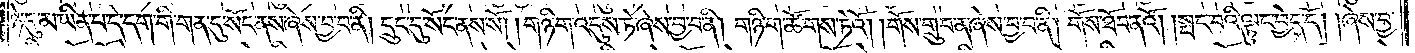ཉེ་དུ་མ་ཡིན་པ་དེ་དག་གི་གན་དུ་སོང་ནས་ཞེས་བྱ་བ་ནི། དྲུང་དུ་སོང་ནས་སོ། །གཉི་ག་འདུས་ཏེ་ཞེས་བྱ་བ་ནི། གཉི་ག་ཚོགས་ཏེའོ། །གོས་གྲུབ་ན་ཞེས་བྱ་བ་ནི། གོས་ཐོབ་ནའོ། །སྤང་བའི་ལྟུང་བྱེད་དོ། །ཞེས་བྱ་
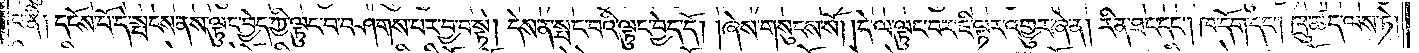པ་ནི༏ དངོས་པོ་དེ་སྤངས་ནས་ལྟུང་བྱེད་ཀྱི་ལྟུང་བ་བཤགས་པར་བྱ་བ་སྟེ། དེས་ན་སྤང་བའི་ལྟུང་བྱེད་དོ། །ཞེས་གསུངས་སོ། །དེ་ལ་ལྟུང་བར་ཇི་ལྟར་འགྱུར་ཞེ་ན། རིན་ཐང་དང༌། ཁ་དོག་དང༌། ཁྲུ་ཚད་ལས་ཏེ།
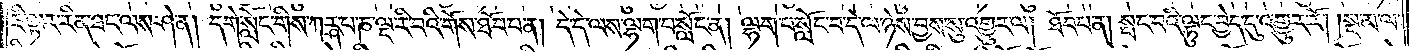ཇི་ལྟར་རིན་ཐང་ལས་ཤེ་ན། དགེ་སློང་གིས་ཀཪྴ་པ་ཎ་ལྔ་རི་བའི་གོས་ཐོབ་པ་ན། དེ་དེ་ལས་ལྷག་པ་སློང་ན། ལྷག་པ་སློང་བ་དེ་ལ་ཉེས་བྱས་སུ་འགྱུར་ལ། ཐོབ་པ་ན། སྤང་བའི་ལྟུང་བྱེད་དུ་འགྱུར་རོ། །སྔ་མ་ལ་
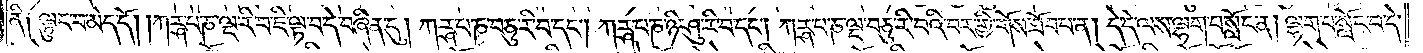ནི༑ ལྟུང་བ་མེད་དོ། །ཀཪྴ་པ་ཎ་ལྔ་རི་བ་ཇི་ལྟ་བ་དེ་བཞིན་དུ། ཀཪྴ་པ་ཎ་བཅུ་རི་བ་དང༌། ཀཪྴ་པ་ཎ་ཉི་ཤུ་རི་བ་དང༌། ཀཪྴ་པ་ཎ་ལྔ་བཅུ་རི་བའི་བར་གྱི་གོས་ཐོབ་པ་ན། དེ་དེ་ལས་ལྷག་པ་སློང་ན། ལྷག་པ་སློང་བ་དེ་
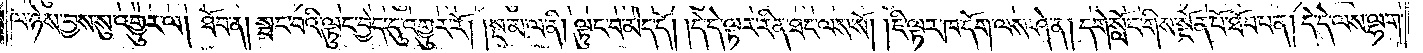ལ་ཉེས་བྱས་སུ་འགྱུར་ལ། ཐོབ་ན། སྤང་བའི་ལྟུང་བྱེད་དུ་འགྱུར་རོ། །སྔ་མ་ལ་ནི། ལྟུང་བ་མེད་དོ། །དེ་དེ་ལྟར་རིན་ཐང་ལས་སོ། །ཇི་ལྟར་ཁ་དོག་ལས་ཤེ་ན། དགེ་སློང་གིས་སྔོན་པོ་ཐོབ་པ་ན། དེ་དེ་ལས་ལྷག་
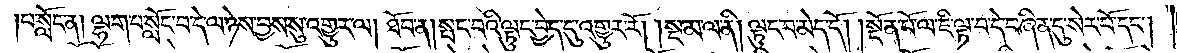པ་སློང་ན། ལྷག་པ་སློང་བ་དེ་ལ་ཉེས་བྱས་སུ་འགྱུར་ལ། ཐོབ་ན། སྤང་བའི་ལྟུང་བྱེད་དུ་འགྱུར་རོ། །སྔ་མ་ལ་ནི། ལྟུང་བ་མེད་དོ། །སྔོན་པོ་ལ་ཇི་ལྟ་བ་དེ་བཞིན་དུ་སེར་པོ་དང༌།
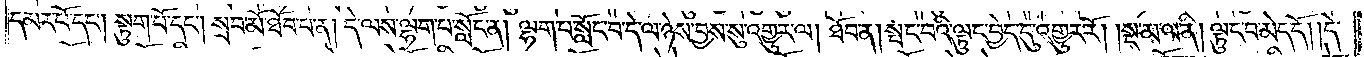དམར་པོ་དང༌། སྟུག་པོ་དང༌། སྲབ་མོ་ཐོབ་པ་ན། དེ་ལས་ལྷག་པ་སློང་ན། ལྷག་པ་སློང་བ་དེ་ལ་ཉེས་བྱས་སུ་འགྱུར་ལ། ཐོབ་ན། སྤང་བའི་ལྟུང་བྱེད་དུ་འགྱུར་རོ། །སྔ་མ་ལ་ནི། ལྟུང་བ་མེད་དོ། །དེ་
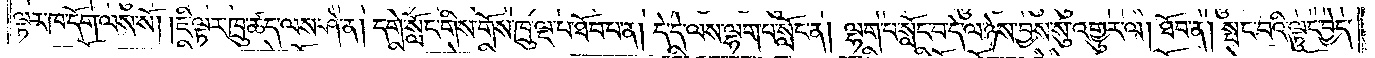ལྟར་ཁ་དོག་ལས་སོ། །ཇི་ལྟར་ཁྲུ་ཚུད་ལས་ཤེ་ན། དགེ་སློང་གིས་གོས་ཁྲུ་ལྔ་པ་ཐོབ་པ་ན། དེ་དེ་ལས་ལྷག་པ་སློང་ན། ལྷག་པ་སློང་བ་དེ་ལ་ཉེས་བྱས་སུ་འགྱུར་ལ། ཐོབ་ན། སྤང་བའི་ལྟུང་བྱེད་
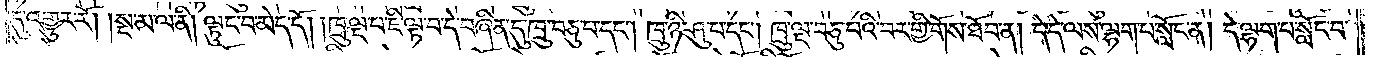དུ་འགྱུར་རོ། །སྔ་མ་ལ་ནི། ལྟུང་བ་མེད་དོ། །ཁྲུ་ལྔ་པ་ཇི་ལྟ་བ་དེ་བཞིན་དུ་ཁྲུ་བཅུ་པ་དང༌། ཁྲུ་ཉི་ཤུ་པ་དང༌། ཁྲུ་ལྔ་བཅུ་པའི་བར་གྱི་གོས་ཐོབ་ན། དེ་དེ་ལས་ལྷག་པ་སློང་ན། དེ་ལྷག་པ་སློང་བ་
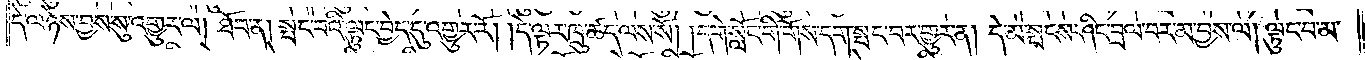དེ་ལ་ཉེས་བྱས་སུ་འགྱུར་ལ། ཐོབ་ན། སྤང་བའི་ལྟུང་བྱེད་དུ་འགྱུར་རོ། །དེ་ལྟར་ཁྲུ་ཚད་ལས་སོ། །དགེ་སློང་གིས་གོས་དག་སྤང་བར་གྱུར་ན། དེ་མ་སྤངས་ཤིང་བྲལ་བར་མ་བྱས་ལ། ལྟུང་བ་མ་
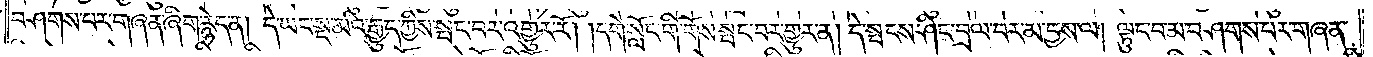བཤགས་པར་གཞན་ཞིག་རྙེད་ན། དེ་ཡང་སྔ་མའི་རྒྱུད་ཀྱིས་སྤང་བར་འགྱུར་རོ། །དགེ་སློང་གི་གོས་སྤང་བར་གྱུར་ན། དེ་སྤངས་ཤིང་བྲལ་བར་མ་བྱས་ལ། ལྟུང་བ་མ་བཤགས་པར་གཞན་
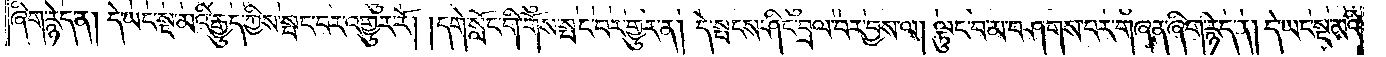ཞིག་རྙེད་ན། དེ་ཡང་སྔ་མའི་རྒྱུད་ཀྱིས་སྤང་བར་འགྱུར་རོ། །དགེ་སློང་གི་གོས་སྤང་བར་གྱུར་ན། དེ་སྤངས་ཤིང་བྲལ་བར་བྱས་ལ། ལྟུང་བ་མ་བཤགས་པར་གཞན་ཞིག་རྙེད་ན། དེ་ཡང་སྔ་མའི་
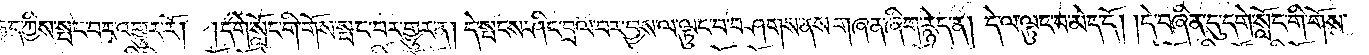རྒྱུད་ཀྱིས་སྤང་བར་འགྱུར་རོ། །དགེ་སློང་གི་གོས་སྤང་བར་གྱུར་ན། དེ་སྤངས་ཤིང་བྲལ་བར་བྱས་ལ་ལྟུང་བ་བཤགས་ནས་གཞན་ཞིག་རྙེད་ན། དེ་ལ་ལྟུང་བ་མེད་དོ། །དེ་བཞིན་དུ་དགེ་སློང་གི་གོས་
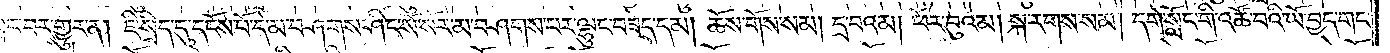སྤང་བར་གྱུར་ན། ཇི་སྲིད་དུ་དངོས་པོ་དེ་མ་བཤགས་ཤིང་སོ་སོར་མ་བཤགས་པར་ལྷུང་བཟེད་དམ། ཆོས་གོས་སམ། དྲ་བའམ། ཕོར་བུའམ། སྐ་རགས་སམ། དགེ་སློང་གི་འཚོ་བའི་ཡོ་བྱད་གང་
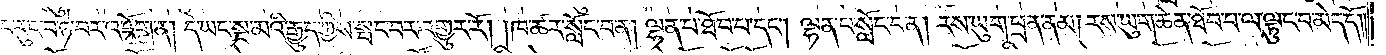ཡང་རུང་བ་ཉེ་བར་འཇོག་ན། དེ་ཡང་སྔ་མའི་རྒྱུད་ཀྱིས་སྤང་བར་འགྱུར་རོ། །ཁ་ཚར་སློང་བ་ན། ལྷན་པ་ཐོབ་པ་དང༌། ལྷན་པ་སློང་བ་ན། རས་ཡུག་ཕྲན་ནམ། རས་ཡུག་ཆེན་ཐོབ་པ་ལ་ལྟུང་བ་མེད་དོ༎
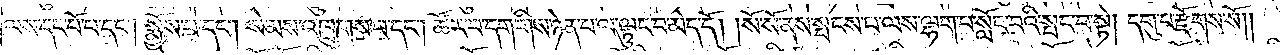ལས་དང་པོ་པ་དང༌། སྨྱོས་པ་དང༌། སེམས་འཁྲུགས་པ་དང༌། ཚོར་བ་དག་གིས་ཉེན་པ་ལ་ལྟུང་བ་མེད་དོ། །སོ་སོ་ནས་སྤངས་པ་ལས་ལྷག་པ་སློང་བའི་སྤང་བ་སྟེ། དགུ་པ་རྫོགས་སོ༎
